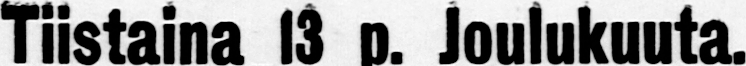Tiistania 13 p. Joulukuuta.
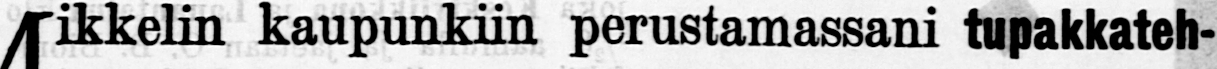Mikkelin kaupunkiin perustamanani tupakkateh-
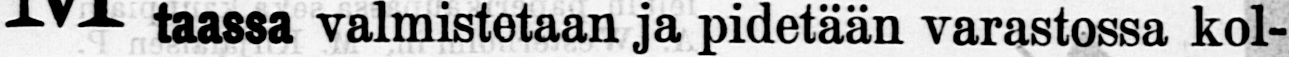taassa valmistetaan ja pidetään varastossa kol-
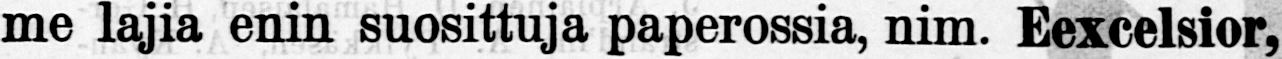me lajia enin suosittuja paperossia, nim. Eexcelsior,
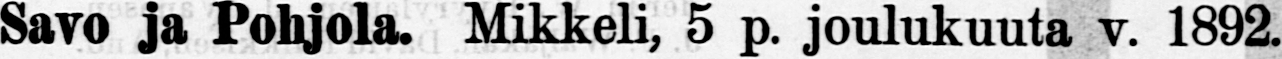Savo ja Pohjola. Mikkeli, 5 p. joulukuuta v. 1892.
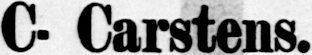C. Carstens.
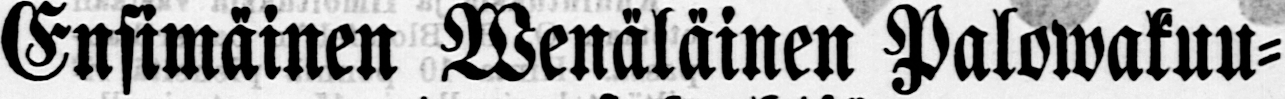Ensimäinen Wenäläinen Palowakuu-
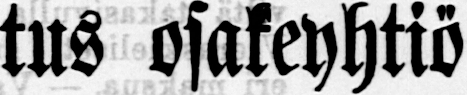tus osakeyhtiö
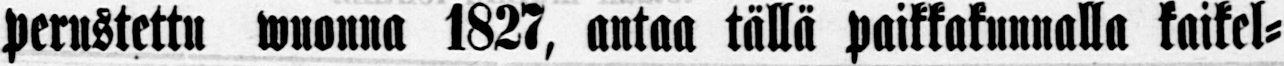perustettu vuonna 1827, antaa tällä paikkakunnalla kaikel-
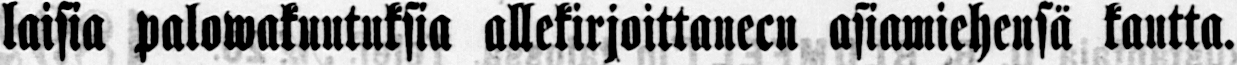laisia palowakuutuksia allekirjoittaneeu asiamiehensä kautta.
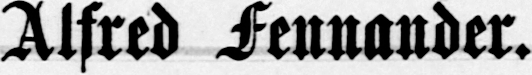Alfred Fennander.
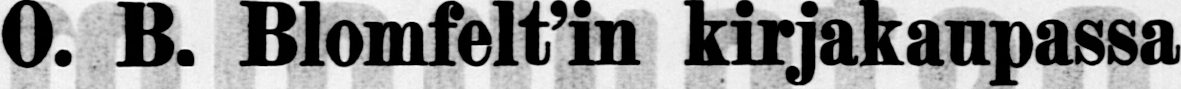O. B. Blomfelt’in kirjakaupassa
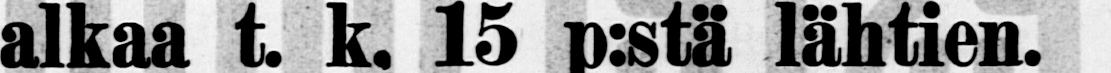alkaa t. k. 15 p:stä lähtien.
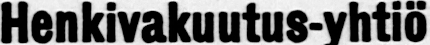Henkivakuutus-yhtiö
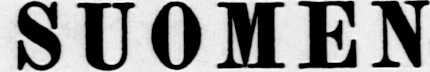SUOMEN
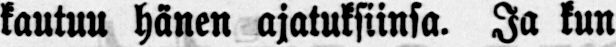kaatuu hänen ajatuksiinsa. Ja kun
